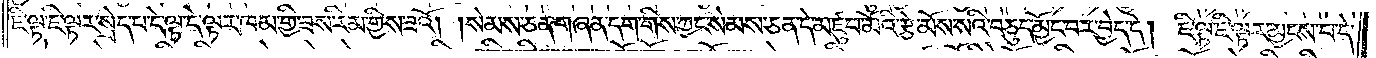ཇི་ལྟ་ཇི་ལྟར་སྲེད་པ་དེ་ལྟ་དེ་ལྟར་ཁམ་གྱི་ཟས་རིམ་གྱིས་ཟའོ། །སེམས་ཅན་གཞན་དག་གིས་ཀྱང་སེམས་ཅན་དེ་མཛུབ་མོའི་རྩེ་མོས་སའི་བཅུད་མྱོང་བར་བྱེད་དེ། ཇི་ལྟ་ཇི་ལྟར་མྱངས་པ་དེ་
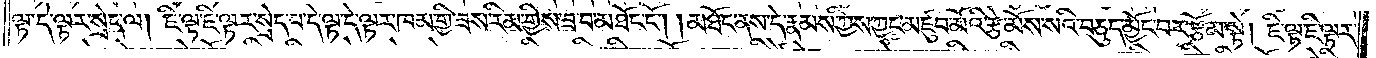ལྟ་དེ་ལྟར་སྲེད་ལ། ཇི་ལྟ་ཇི་ལྟར་སྲེད་པ་དེ་ལྟ་དེ་ལྟར་ཁམ་གྱི་ཟས་རིམ་གྱིས་ཟ་བ་མཐོང་ངོ༌། །མཐོང་ནས་དེ་རྣམས་ཀྱིས་ཀྱང་མཛུབ་མོའི་རྩེ་མོས་སའི་བཅུད་མྱོང་བར་རྩོམ་སྟེ། ཇི་ལྟ་ཇི་ལྟར་
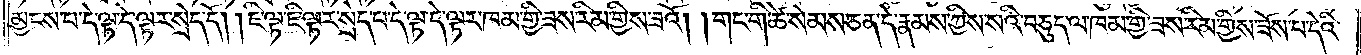མྱངས་པ་དེ་ལྟ་དེ་ལྟར་སྲེད་དོ། །ཇི་ལྟ་ཇི་ལྟར་སྲེད་པ་དེ་ལྟ་དེ་ལྟར་ཁམ་གྱི་ཟས་རིམ་གྱིས་ཟའོ། །གང་གི་ཚེ་སེམས་ཅན་དེ་རྣམས་ཀྱིས་སའི་བཅུད་ལ་ཁམ་གྱི་ཟས་རིམ་གྱིས་ཟོས་པ་དེའི་
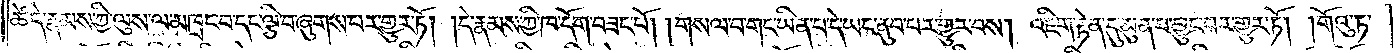ཚེ་དེ་རྣམས་ཀྱི་ལུས་ལ་མཁྲང་བ་དང་ལྕི་བ་ཞུགས་པར་གྱུར་ཏོ། །དེ་རྣམས་ཀྱི་ཁ་དོག་བཟང་པོ། །གསལ་བ་གང་ཡིན་པ་དེ་ཡང་ནུབ་པར་གྱུར་བས། འཇིག་རྟེན་དུ་མུན་པ་བྱུང་བར་གྱུར་ཏོ། །གོའུ་ཏ་
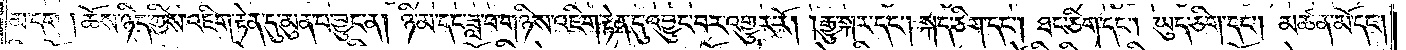མ་དག །ཆོས་ཉིད་ཀྱིས་འཇིག་རྟེན་དུ་མུན་པ་བྱུང་ན། ཉི་མ་དང་ཟླ་བ་གཉིས་འཇིག་རྟེན་དུ་འབྱུང་བར་འགྱུར་རོ། །རྒྱུ་སྐར་དང༌། སྐད་ཅིག་དང༌། ཐང་ཅིག་དང༌། ཡུད་ཅིག་དང༌། མཚན་མོ་དང༌།
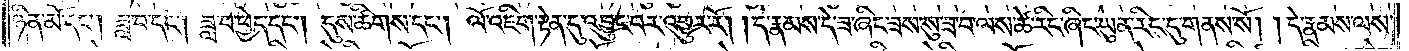ཉིན་མོ་དང༌། ཟླ་བ་དང༌། ཟླ་བ་ཕྱེད་དང༌། དུས་ཚིགས་དང༌། ལོ་འཇིག་རྟེན་དུ་འབྱུང་བར་འགྱུར་རོ། །དེ་རྣམས་དེ་ཟ་ཞིང་ཟས་སུ་ཟ་བ་ལས་ཚེ་རིང་ཞིང་ཡུན་རིང་དུ་གནས་སོ། །དེ་རྣམས་ལས་
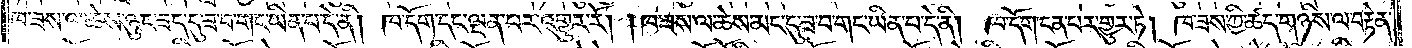ཁ་ཟས་ལ་ཆེས་ཉུང་ཟད་དུ་ཟ་བ་གང་ཡིན་པ་དེ་ནི། ཁ་དོག་དང་ལྡན་པར་འགྱུར་རོ། །ཁ་ཟས་ལ་ཆེས་མང་དུ་ཟ་བ་གང་ཡིན་པ་དེ་ནི། ཁ་དོག་ངན་པར་གྱུར་ཏེ། ཁ་ཟས་ཀྱི་ཚད་གཉིས་ལ་བརྟེན་
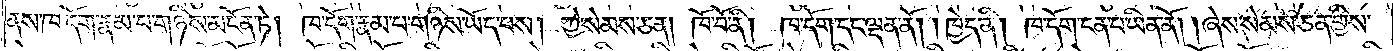ནས་ཁ་དོག་རྣམ་པ་གཉིས་མངོན་ཏེ། ཁ་དོག་རྣམ་པ་གཉིས་ཡོད་པས། ཀྱེ་སེམས་ཅན། ཁོ་བོ་ནི། ཁ་དོག་དང་ལྡན་ནོ། །ཁྱེད་ནི། ཁ་དོག་ངན་པ་ཡིན་ནོ། །ཞེས་སེམས་ཅན་གྱིས་
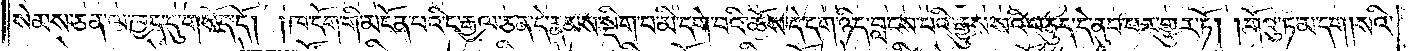སེམས་ཅན་ལ་ཁྱད་དུ་གསོད་དོ། །ཁ་དོག་གི་མངོན་པའི་ང་རྒྱལ་ཅན་དེ་རྣམས་སྡིག་པ་མི་དགེ་བའི་ཆོས་དེ་དག་ཉིད་བླངས་པའི་རྒྱུས་སའི་བཅུད་དེ་ནུབ་པར་གྱུར་ཏོ། །གོའུ་ཏ་མ་དག །སའི་
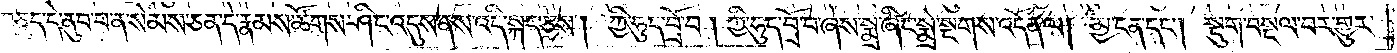བཅུད་དེ་ནུབ་པ་ན་སེམས་ཅན་དེ་རྣམས་ཚོགས་ཤིང་འདུས་ནས་འདི་སྐད་ཅེས། ཀྱི་ཧུད་བྲོ་བ། ཀྱི་ཧུད་བྲོ་བ་ཞེས་སྨྲ་ཞིང་སྨྲེ་སྔགས་འདོན་ལ། མྱ་ངན་དང༌། སྡུག་བསྔལ་བར་གྱུར་
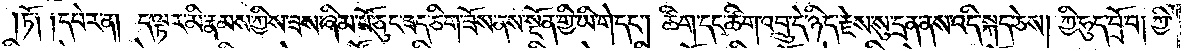།ཏོ༑ ༑དཔེར་ན། ད་ལྟར་མི་རྣམས་ཀྱིས་ཟས་ཞིམ་པོ་ཅུང་ཟད་ཅིག་ཟོས་ནས་སྔོན་གྱི་ཡི་གེ་དང༌། ཚིག་དང་ཚིག་འབྲུ་དེ་ཉིད་རྗེས་སུ་དྲན་ནས་འདི་སྐད་ཅེས། ཀྱི་ཧུད་བྲོ་བ། ཀྱི་
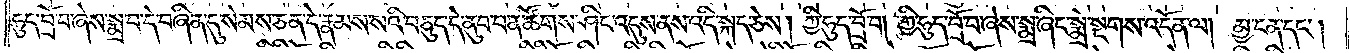ཧུད་བྲོ་བ་ཞེས་སྨྲ་བ་དེ་བཞིན་དུ་སེམས་ཅན་དེ་རྣམས་སའི་བཅུད་དེ་ནུབ་པ་ན་ཚོགས་ཤིང་འདུས་ནས་འདི་སྐད་ཅེས། ཀྱི་ཧུད་བྲོ་བ། ཀྱི་ཧུད་བྲོ་བ་ཞེས་སྨྲ་ཞིང་སྨྲེ་སྔགས་འདོན་ལ། མྱ་ངན་དང༌།
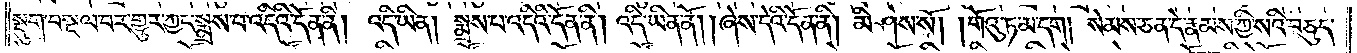སྡུག་བསྔལ་བར་གྱུར་ཀྱང་སྨྲས་པ་འདིའི་དོན་ནི། འདི་ཡིན། སྨྲས་པ་འདིའི་དོན་ནི། འདི་ཡིན་ནོ། །ཞེས་དེའི་དོན་ནི། མི་ཤེས་སོ། །གོའུ་ཏ་མ་དག །སེམས་ཅན་དེ་རྣམས་ཀྱི་སའི་བཅུད་
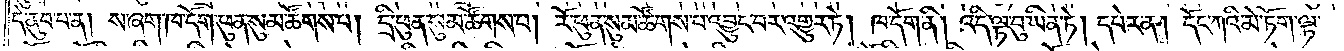དེ་ནུབ་པ་ན། ས་ཞག་ཁ་དོག་ཕུན་སུམ་ཚོགས་པ། དྲི་ཕུན་སུམ་ཚོགས་པ། རོ་ཕུན་སུམ་ཚོགས་པ་འབྱུང་བར་འགྱུར་ཏེ། ཁ་དོག་ནི། འདི་ལྟ་བུ་ཡིན་ཏེ། དཔེར་ན། དོང་ཀའི་མེ་ཏོག་ལྟ་
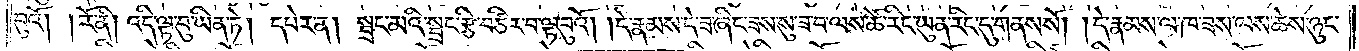བུའོ། །རོ་ནི། འདི་ལྟ་བུ་ཡིན་ཏེ། དཔེར་ན། སྦྲང་མའི་སྦྲང་རྩི་བཙིར་བ་ལྟ་བུའོ། །དེ་རྣམས་དེ་ཟ་ཞིང་ཟས་སུ་ཟ་བ་ལས་ཚེ་རིང་ཡུན་རིང་དུ་གནས་སོ། །དེ་རྣམས་ལ་ཁ་ཟས་ལས་ཆེས་ཉུང་
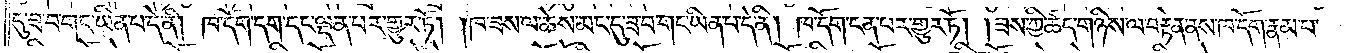དུ་ཟ་བ་གང་ཡིན་པ་དེ་ནི། ཁ་དོག་དག་དང་ལྡན་པར་གྱུར་ཏོ། །ཁ་ཟས་ལ་ཆེས་མང་དུ་ཟ་བ་གང་ཡིན་པ་དེ་ནི། ཁ་དོག་ངན་པར་གྱུར་ཏོ། །ཟས་ཀྱི་ཚད་གཉིས་ལ་བརྟེན་ནས་ཁ་དོག་རྣམ་པ་
